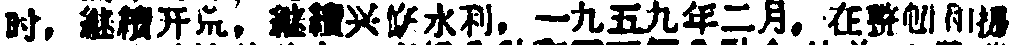时，継續开荒，継續兴修水利，一九五九年二月，在整顿和提
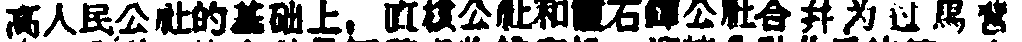高人民公社的基础上，直核公社和霞石鐸公社合并为过馬營
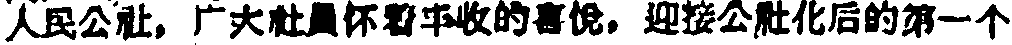人更公社，广大社員怀着丰收的喜悦，迎接公社化后的第一个
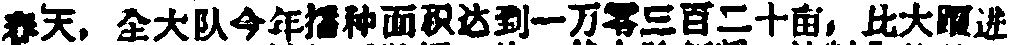春天、全大队今年播种面积达到一万零三百二十亩，比大躍进
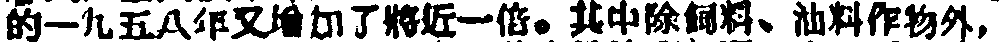的一九五八年又增加了將近一倍。其中除飼料、油料作物外，
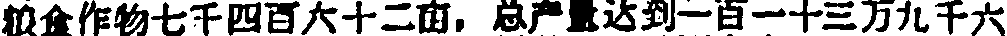粮食作物七千四百六十二亩，总产量达到一百一十三万九千六
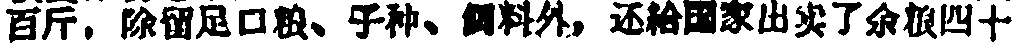百斤，除留足口粮、子种、飼料外，还給国家出卖了余粮四十
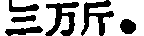三万斤。
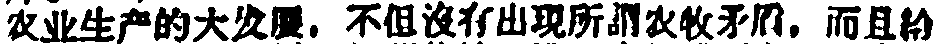农业生产的大发展，不但沒有出現所謂农牧矛盾，而且給
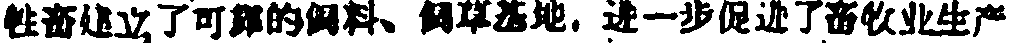牲畜建立了可靠的飼料、飼草基地，进一步促进了畜牧业生产
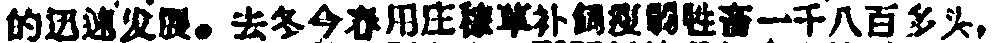的迅速发展。去冬今春用庄稼草补飼瘦弱牲畜一千八百多头，
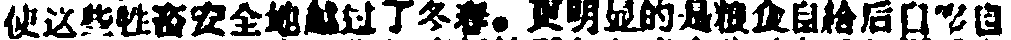使这些牲畜安全地越过了冬春。更明显的是粮食自給后自吃自
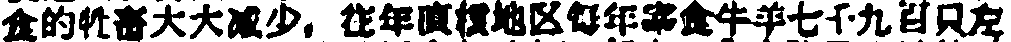食的牲畜大大減少，往年直核地区每年宰食牛羊七千九百只左
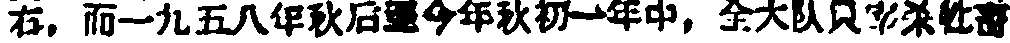右，而一九五八年秋后至今年秋初一年中，全大队只宰杀牲畜
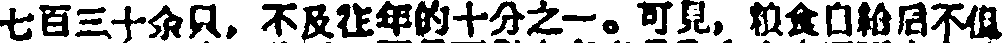七百三十余只，不及往年的十分之一。可見，粮食自給后不但
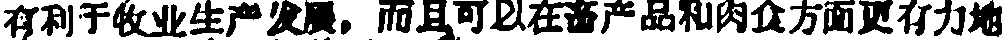有利于牧业生产发展，而且可以在畜产品和肉食方面更有力地
